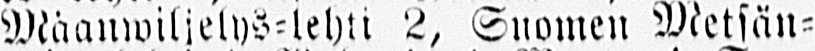Maanwiljelys-lehti 2, Suomen Metsän-
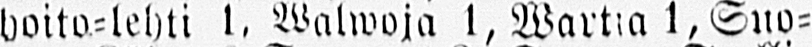hoito-lehti 1. Walwoja 1, Wartia 1, Suo-
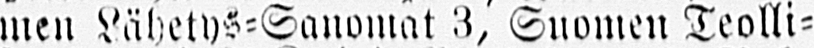men Lähetys-Sanomat 3, Suomen Teolli-
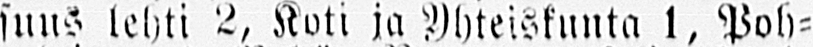suus lehti 2, Koti ja Yhteiskunta 1, Poh-
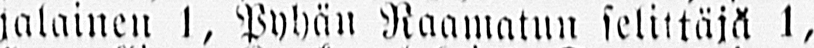jalainen 1, Pyhän Raamatun selittäjä 1,
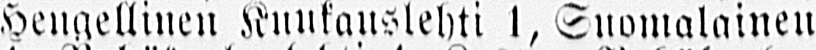Hengellinen Kuukauslehti 1, Suomalainen
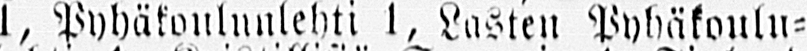1, Pyhäkoulunlehti 1, Lasten Pyhäkoulu-
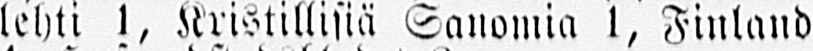lehti 1, Kristillisiä Sanomia 1, Finland
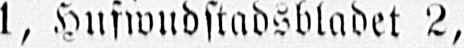1, Husfwudstadsbladet 2,
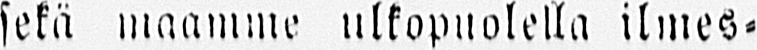sekä maamme ulkopuolella ilmes-
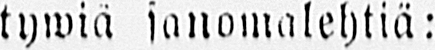tywiä sanomalehtiä:
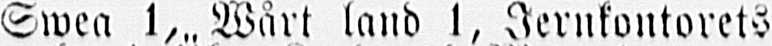Swea 1,„Wårt land 1, Jernkontorets
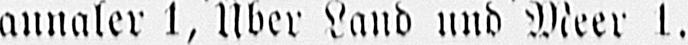annaler 1, Über Land und Meer 1.
